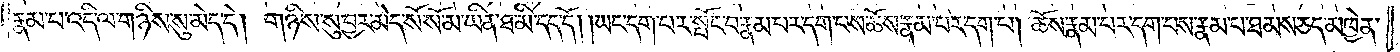རྣམ་པ་འདི་ལ་གཉིས་སུ་མེད་དེ། གཉིས་སུ་བྱར་མེད་སོ་སོ་མ་ཡིན་ཐ་མི་དད་དོ། །ཡང་དག་པར་སྤོང་བ་རྣམ་པར་དག་པས་ཆོས་རྣམ་པར་དག་པ། ཆོས་རྣམ་པར་དག་པས་རྣམ་པ་ཐམས་ཅད་མཁྱེན་
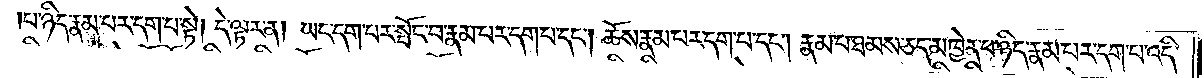པ་ཉིད་རྣམ་པར་དག་པ་སྟེ། དེ་ལྟར་ན། ཡང་དག་པར་སྤོང་བ་རྣམ་པར་དག་པ་དང༌། ཆོས་རྣམ་པར་དག་པ་དང༌། རྣམ་པ་ཐམས་ཅད་མཁྱེན་པ་ཉིད་རྣམ་པར་དག་པ་འདི་
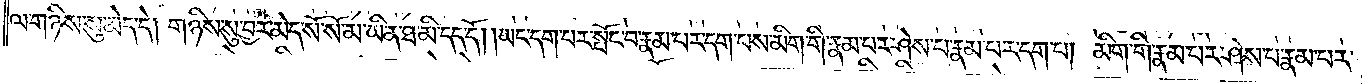ལ་གཉིས་སུ་མེད་དེ། གཉིས་སུ་བྱར་མེད་སོ་སོ་མ་ཡིན་ཐ་མི་དད་དོ། །ཡང་དག་པར་སྤོང་བ་རྣམ་པར་དག་པས་མིག་གི་རྣམ་པར་ཤེས་པ་རྣམ་པར་དག་པ། མིག་གི་རྣམ་པར་ཤེས་པ་རྣམ་པར་
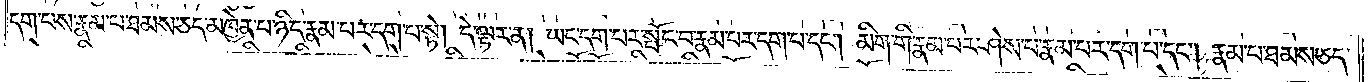དག་པས་རྣམ་པ་ཐམས་ཅད་མཁྱེན་པ་ཉིད་རྣམ་པར་དག་པ་སྟེ། དེ་ལྟར་ན། ཡང་དག་པར་སྤོང་བ་རྣམ་པར་དག་པ་དང༌། མིག་གི་རྣམ་པར་ཤེས་པ་རྣམ་པར་དག་པ་དང༌། རྣམ་པ་ཐམས་ཅད་
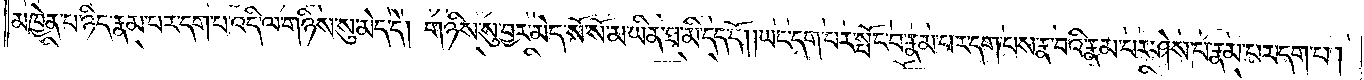མཁྱེན་པ་ཉིད་རྣམ་པར་དག་པ་འདི་ལ་གཉིས་སུ་མེད་དེ། གཉིས་སུ་བྱར་མེད་སོ་སོ་མ་ཡིན་ཐ་མི་དད་དོ། །ཡང་དག་པར་སྤོང་བ་རྣམ་པར་དག་པས་རྣ་བའི་རྣམ་པར་ཤེས་པ་རྣམ་པར་དག་པ།
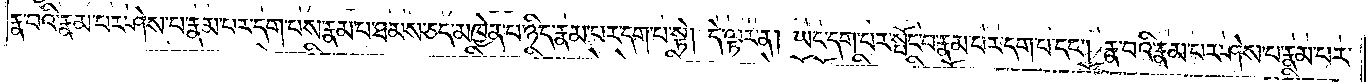རྣ་བའི་རྣམ་པར་ཤེས་པ་རྣམ་པར་དག་པས་རྣམ་པ་ཐམས་ཅད་མཁྱེན་པ་ཉིད་རྣམ་པར་དག་པ་སྟེ། དེ་ལྟར་ན། ཡང་དག་པར་སྤོང་བ་རྣམ་པར་དག་པ་དང༌། རྣ་བའི་རྣམ་པར་ཤེས་པ་རྣམ་པར་
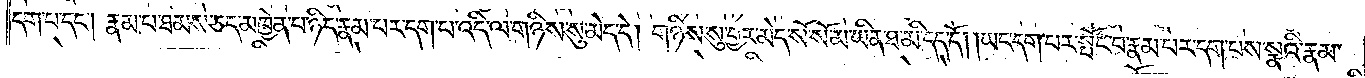དག་པ་དང༌། རྣམ་པ་ཐམས་ཅད་མཁྱེན་པ་ཉིད་རྣམ་པར་དག་པ་འདི་ལ་གཉིས་སུ་མེད་དེ། གཉིས་སུ་བྱར་མེད་སོ་སོ་མ་ཡིན་ཐ་མི་དད་དོ། །ཡང་དག་པར་སྤོང་བ་རྣམ་པར་དག་པས་སྣའི་རྣམ་
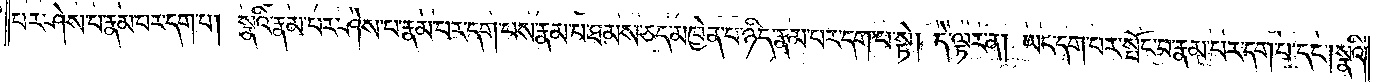པར་ཤེས་པ་རྣམ་པར་དག་པ། སྣའི་རྣམ་པར་ཤེས་པ་རྣམ་པར་དག་པས་རྣམ་པ་ཐམས་ཅད་མཁྱེན་པ་ཉིད་རྣམ་པར་དག་པ་སྟེ། དེ་ལྟར་ན། ཡང་དག་པར་སྤོང་བ་རྣམ་པར་དག་པ་དང༌། སྣའི་
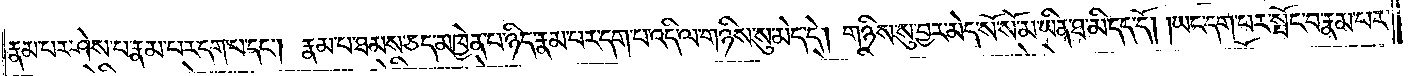རྣམ་པར་ཤེས་པ་རྣམ་པར་དག་པ་དང༌། རྣམ་པ་ཐམས་ཅད་མཁྱེན་པ་ཉིད་རྣམ་པར་དག་པ་འདི་ལ་གཉིས་སུ་མེད་དེ། གཉིས་སུ་བྱར་མེད་སོ་སོ་མ་ཡིན་ཐ་མི་དད་དོ། །ཡང་དག་པར་སྤོང་བ་རྣམ་པར་
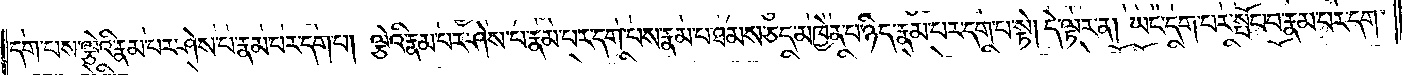དག་པས་ལྕེའི་རྣམ་པར་ཤེས་པ་རྣམ་པར་དག་པ། ལྕེའི་རྣམ་པར་ཤེས་པ་རྣམ་པར་དག་པས་རྣམ་པ་ཐམས་ཅད་མཁྱེན་པ་ཉིད་རྣམ་པར་དག་པ་སྟེ། དེ་ལྟར་ན། ཡང་དག་པར་སྤོང་བ་རྣམ་པར་དག་
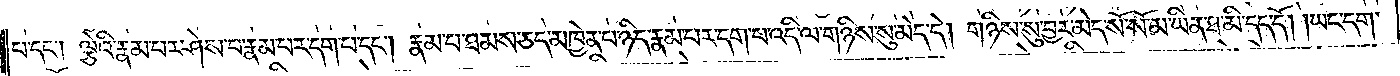པ་དང༌། ལྕེའི་རྣམ་པར་ཤེས་པ་རྣམ་པར་དག་པ་དང༌། རྣམ་པ་ཐམས་ཅད་མཁྱེན་པ་ཉིད་རྣམ་པར་དག་པ་འདི་ལ་གཉིས་སུ་མེད་དེ། གཉིས་སུ་བྱར་མེད་སོ་སོ་མ་ཡིན་ཐ་མི་དད་དོ། །ཡང་དག་
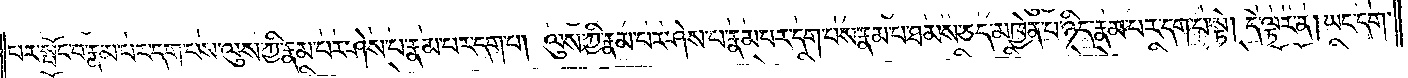པར་སྤོང་བ་རྣམ་པར་དག་པས་ལུས་ཀྱི་རྣམ་པར་ཤེས་པ་རྣམ་པར་དག་པ། ལུས་ཀྱི་རྣམ་པར་ཤེས་པ་རྣམ་པར་དག་པས་རྣམ་པ་ཐམས་ཅད་མཁྱེན་པ་ཉིད་རྣམ་པར་དག་པ་སྟེ། དེ་ལྟར་ན། ཡང་དག་
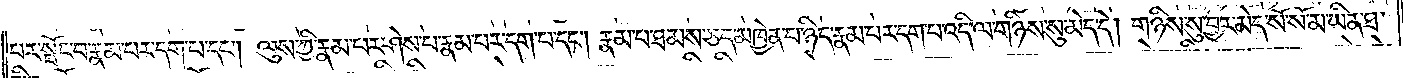པར་སྤོང་བ་རྣམ་པར་དག་པ་དང༌། ལུས་ཀྱི་རྣམ་པར་ཤེས་པ་རྣམ་པར་དག་པ་དང༌། རྣམ་པ་ཐམས་ཅད་མཁྱེན་པ་ཉིད་རྣམ་པར་དག་པ་འདི་ལ་གཉིས་སུ་མེད་དེ། གཉིས་སུ་བྱར་མེད་སོ་སོ་མ་ཡིན་ཐ་
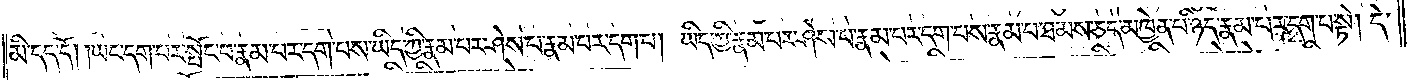མི་དད་དོ། །ཡང་དག་པར་སྤོང་བ་རྣམ་པར་དག་པས་ཡིད་ཀྱི་རྣམ་པར་ཤེས་པ་རྣམ་པར་དག་པ། ཡིད་ཀྱི་རྣམ་པར་ཤེས་པ་རྣམ་པར་དག་པས་རྣམ་པ་ཐམས་ཅད་མཁྱེན་པ་ཉིད་རྣམ་པར་དག་པ་སྟེ། དེ་
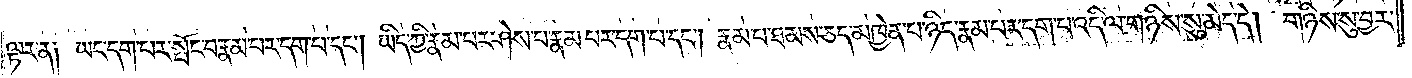ལྟར་ན༑ ཡང་དག་པར་སྤོང་བ་རྣམ་པར་དག་པ་དང༌། ཡིད་ཀྱི་རྣམ་པར་ཤེས་པ་རྣམ་པར་དག་པ་དང༌། རྣམ་པ་ཐམས་ཅད་མཁྱེན་པ་ཉིད་རྣམ་པར་དག་པ་འདི་ལ་གཉིས་སུ་མེད་དེ། གཉིས་སུ་བྱར་
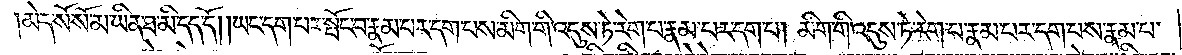མེད་སོ་སོ་མ་ཡིན་ཐ་མི་དད་དོ། །ཡང་དག་པར་སྤོང་བ་རྣམ་པར་དག་པས་མིག་གི་འདུས་ཏེ་རེག་པ་རྣམ་པར་དག་པ། མིག་གི་འདུས་ཏེ་རེག་པ་རྣམ་པར་དག་པས་རྣམ་པ་
